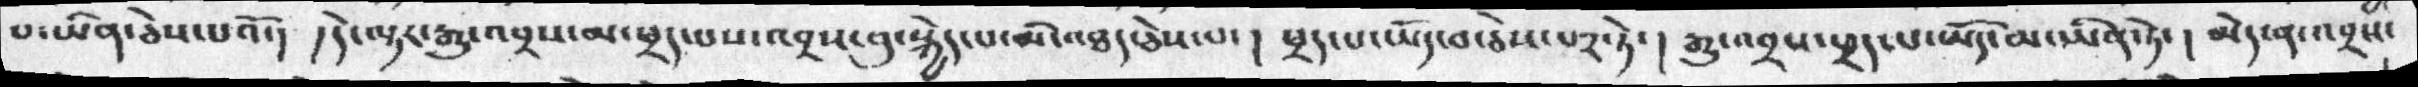པ་ཡིན་ཅེས་པའོ་།  །དེ་ལྟར་རྒྱུ་འབྲས་མ་ཕྲད་པས་འབྲས་བུ་སྐྱེད་པ་མི་འཐད་ཅེས་པ་། ཕྲད་པ་ཡོད་བ་ཅེས་པ༢་ཏེ་། རྒྱུ་འབྲས་ཕྲད་པ་ཡོད་མ་ཡིན་ཏེ་། མེད་ན་འབྲས་
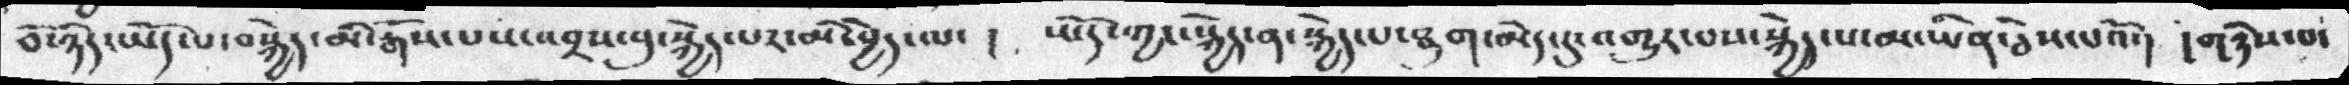བོ་ཉིད་ཡོད་པ་བསྐྱེད་མི་རྒོས་པས་འབྲས་བུ་སྐྱེད་པར་མི་བྱེད་ལ་།  ཡོད་ཀྱང་སྐྱེད་ན་སྐྱེད་པ་ཐུག་མེད་དུ་འགྱུར་བས་སྐྱེད་པ་མ་ཡིན་ཅེས་པའོ་། གཉིས་པ་
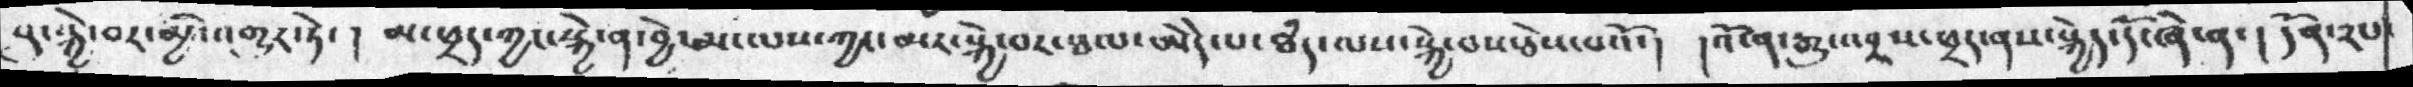བུ་སྐྱེ་བར་མྱི་འགྱུར་ཏེ་།  མ་ཕྲད་ཀྱང་སྐྱེ་ན་བྱེ་མ་ལས་ཀྱང་མར་སྐྱེ་བར་ཐལ་ཨེདེ་པ་ཐཾད་ལས་སྐྱེ་བ་ཅེས་པའོ་།  །འོ་ན་རྒྱུ་འབྲས་ཕྲད་ནས་སྐྱེད་དོ་ཞེ་ན་། དོན་༢པ་
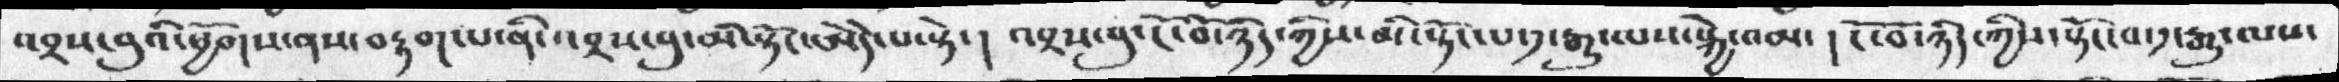འབྲས་བུའི་ཕྱོགས་ནས་བརྟག་པ་ནི་འབྲས་བུ་མི་སྟོང་ཨེདེ་པ་སྟེ་། འབྲས་བུ་ངོ་བོ་ཉིད་ཀྱིས་མི་སྟོང་པ་༡་རྒྱུ་ལས་སྐྱེ་འམ་། །ངོ་བོ་ཉིད་ཀྱིས་སྟོང་བ་༡་རྒྱུ་ལས་
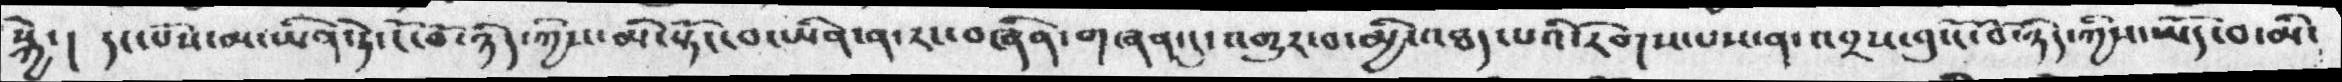སྐྱེ་། དང་པོས་མ་ཡིན་ཏེ་ངོ་བོ་ཉིད་ཀྱིས་མི་སྟོང་བ་ཡིན་ན་རང་བཞིན་གཞན་དུ་འགྱུར་བ་མྱི་འཐད་པའི་རིགས་པས་ན་འབྲས་བུ་ངོ་བོ་ཉིད་ཀྱིས་ཡོད་བ་མི་
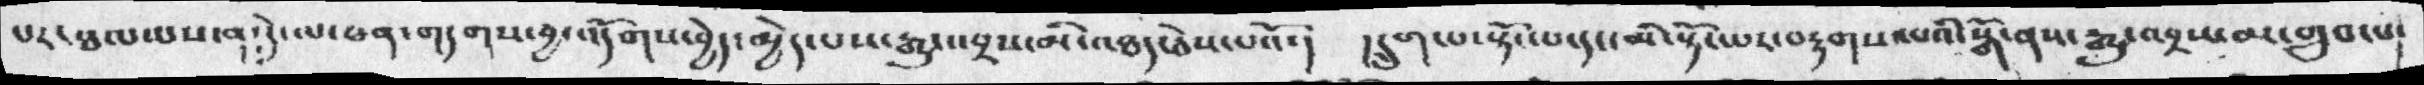པར་ཐལ་པས་ན་དེ་ལ་ཕན་གདགས་བྱ་འདོགས་བྱེད་མྱེད་པས་རྒྱུ་འབྲས་མི་འཐད་ཅེས་པའོ་། །དྲུག་པ་སྟོང་པ་དང་མི་སྟོང་པར་བརྟགས་པའི་སྒོ་ནས་རྒྱུ་འབྲས་མ་གྲུབ་པ་
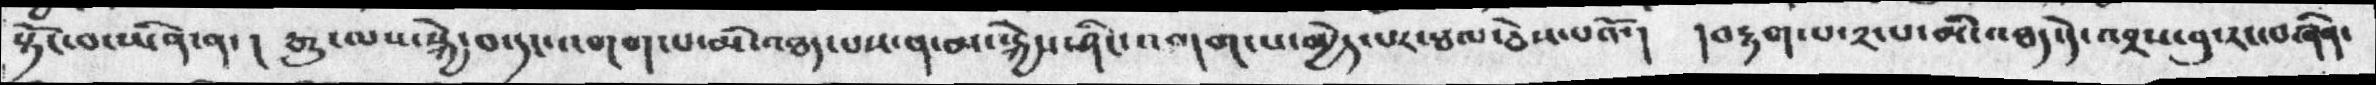སྟོང་བ་ཡིན་ན་།  རྒྱུ་ལས་སྐྱེ་བ་དང་འགག་པ་མི་འཐད་པས་ན་མ་སྐྱེས་ཤིང་འགག་པ་མྱེད་པར་ཐལ་ཅེས་པའོ་། །བརྟག་པ་༢་པ་མི་འཐད་དེ་འབྲས་བུ་རང་བཞིན་
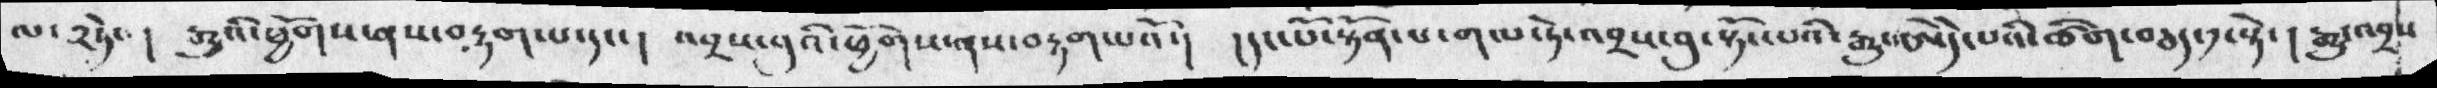ལ་༢ཏེ་།  རྒྱུའི་ཕྱོགས་ནས་བརྟག་པ་དང་།  འབྲས་བུའི་ཕྱོགས་ནས་བརྟག་པའོ་། །དང་པོ་སྟོན་པ་གལ་ཏེ་འབྲས་བུ་སྟོང་པའི་རྒྱུ་ཨེདེ་པའི་ཚིག་བཅད་༡་སྟེ་། རྒྱུ་འབྲས
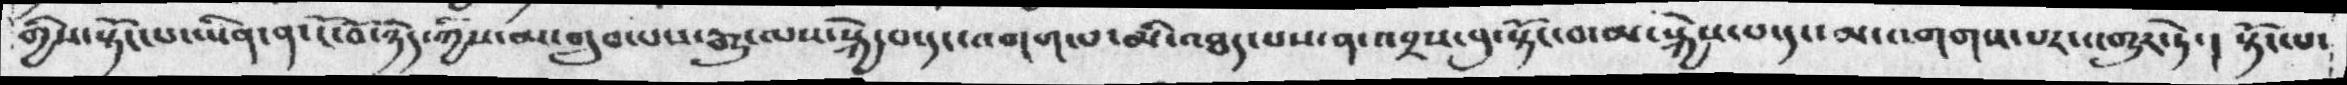གྱིས་སྟོང་པ་ཡིན་ན་ངོ་བོ་ཉིད་ཀྱིས་མ་གྲུབ་པས་རྒྱུ་ལས་སྐྱེ་བ་དང་འགག་པ་མི་འཐད་པས་ན་འབྲས་བུ་སྟོང་བ་མ་སྐྱེས་པ་དང་མ་འགགས་པར་འགྱུར་ཏེ་། སྟོང་པ་
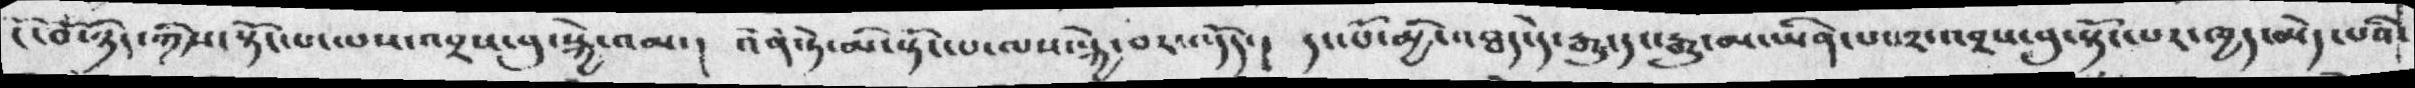ངོ་བོ་ཉིད་ཀྱིས་སྟོང་པ་ལས་འབྲས་བུ་སྐྱེ་འམ་། འོན་ཏེ་མི་སྟོང་པ་ལས་སྐྱེ་བར་འདོད་། དང་པོ་མྱི་འཐད་དེ་རྒྱུ་དང་རྒྱུ་མ་ཡིན་པ་༢་འབྲས་བུ་སྟོང་པར་ཁྱད་མེད་པའི་
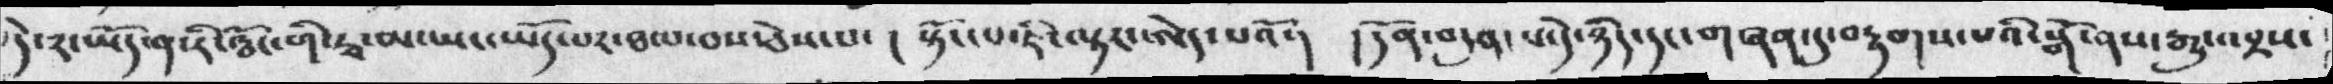དེ་༢་ཡོད་ན་རི་ཝོང་གི་རྭ་མ་ཡང་ཡོད་པར་ཐལ་བས་ཅེས་པ་།  སྟོང་པ་ཇི་ལྟར་ཨེད་པའོ་། །དོན་བདུན་པ་དེ་ཉིད་དང་གཞན་དུ་བརྟགས་པའི་སྒོ་ནས་རྒྱུ་འབྲས་
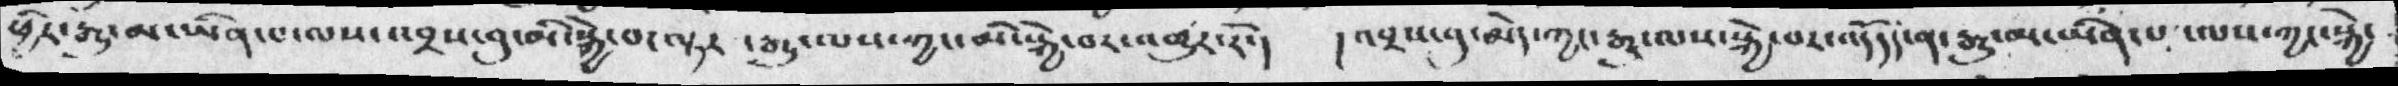ཕྱིར་རྒྱུ་མ་ཡིན་པ་ལས་འབྲས་བུ་མི་སྐྱེ་བ་ལྟར ་རྒྱུ་ལས་ཀྱང་མི་སྐྱེ་བར་འགྱུར་རོ་།  །འབྲས་བུ་མེད་ཀྱང་རྒྱུ་ལས་སྐྱེ་བར་འདོད་ན་རྒྱུ་མ་ཡིན་པ་ལས་ཀྱང་སྐྱེ་
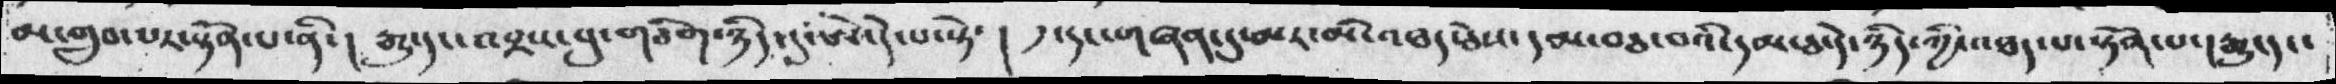མ་གྲུབ་པར་སྟོན་པ་ནི་། རྒྱུ་དང་འབྲས་བུ་གཅིག་ཉིད་དུ་ཨེད་དེ་པ་སྟེ་།  ༡་དང་གཞན་དུ་མར་མི་འཐད་ཅེས་དམ་བཅ་བའི་དམ་ཅ་དེ་ཉིད་ཀྱི་འཐད་པ་སྟོན་པ་།རྒྱུ་དང་
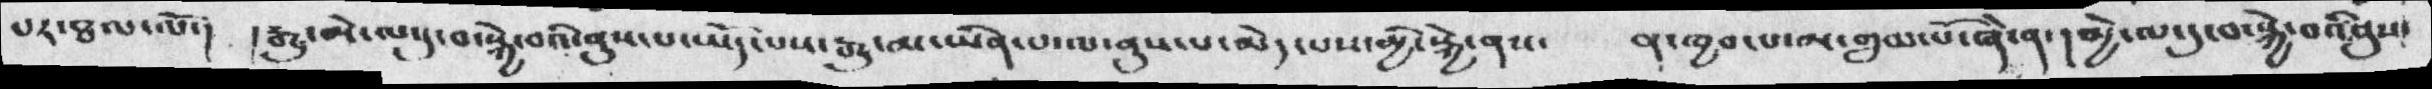པར་ཐལ་ལོ་།  །རྒྱུ་མེ་ལ་དུ་བ་སྐྱེ་བའི་ནུས་པ་ཡོད་པས་རྒྱུ་མ་ཡིན་པ་ལ་ནུས་པ་མེད་པས་མྱི་སྐྱེ་ནས་  ན་ཁྱབ་པ་མ་གྲུབ་པོ་ཞེ་ན་ །མྱེ་ལ་དུ་བ་སྐྱེ་བའི་ནུས་
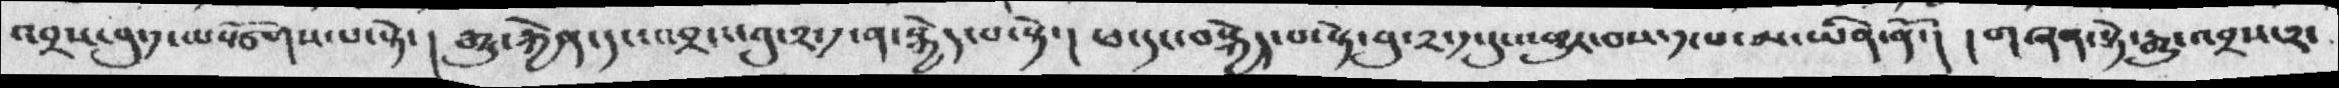འབྲས་བུ་༡་ལསྩོགས་པ་སྟེ་། རྒྱུ་རྐྱེན་དང་འབྲས་བུ་༢་༡་ན་སྐྱེད་པ་སྟེ་། ཕ་དང་བསྐྱེད་པ་སྟེ་བུ་༢་༡་དུ་འཕྱུར་བས་༡་པ་མ་ཡིན་ནོ་།  །གཞན་སྟེ་རྒྱུ་འབྲས་༢་
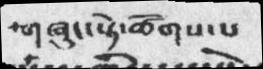གཞུང་སྟེ་ཚོགས་པ
